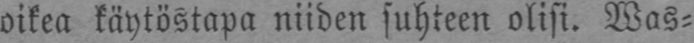oikea käytöstapa niiden suhteen olisi. Was-
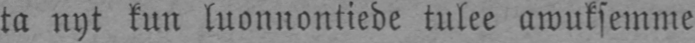ta nyt kun luonnontiede tulee awuksemme
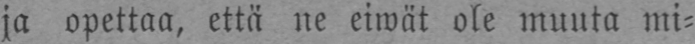ja opettaa, että ne eiwät ole muuta mi-
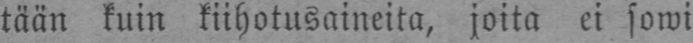tään kuin kiihotusaineita, joita ei sowi
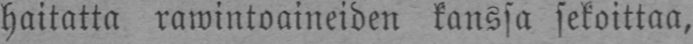haitatta rawintoaineiden kanssa sekoittaa,
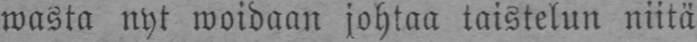wasta nyt woidaan johtaa taistelun niitä
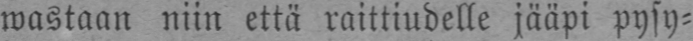wastaan niin että raittiudelle jääpi pysy-
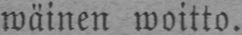wäinen woitto.
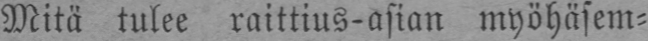Mitä tulee raittius-asian myöhäsem-
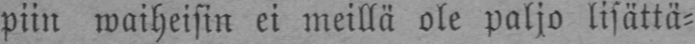piin waiheisin ei meillä ole paljo lisättä-
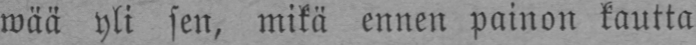wää yli sen, mikä ennen painon kautta
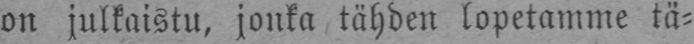on julkaistu, jonka tähden lopetamme tä-
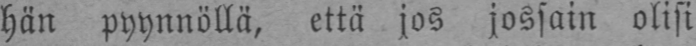hän pyynnöllä, että jos jossain olisi
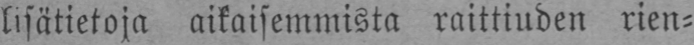lisätietoja aikaisemmista raittiuden rien-
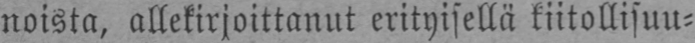noista, allekirjoittanut erityisellä kiitollisuu-
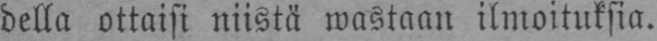della ottaisi niistä wastaan ilmoituksia.
